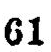61
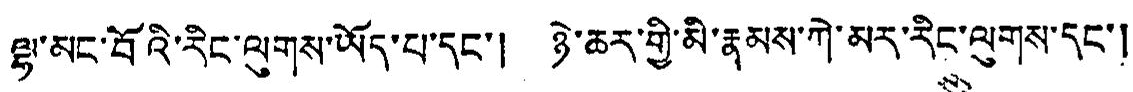ལྷ་མང་བོའི་རིང་ལུགས་ཡོད་པ་དང་། ཉེ་ཆར་གྱི་མི་རྣམས་ཀེ་མར་རིང་ལུགས་དང་།
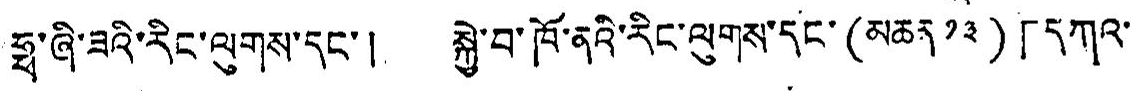ཧྥ་ཞི་ཟའི་རིང་ལུགས་དང་། སྐྱེ་བ་ཁོ་ནའི་རིང་ལུགས་དང་(མཆར ༡༣)「དཀའ་
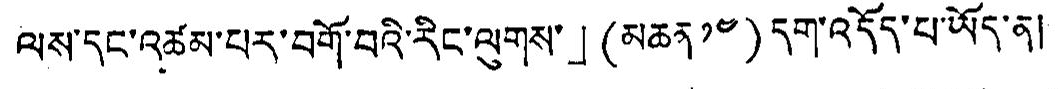ལས་དང་འཚམ་པར་བགོ་བའི་རིང་ལུགས་」(མཆན ༡༤) དག་འདོད་པ་ཡོད་ན།
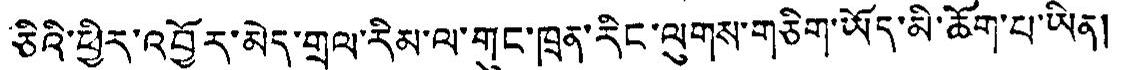ཅིའི་ཕྱིར་འབྱོར་མེད་གྲལ་རིམ་ལ་གུང་ཁྲན་རིང་ལུགས་གཅིག་ཡོད་མི་ཆོག་པ་ཡིན།
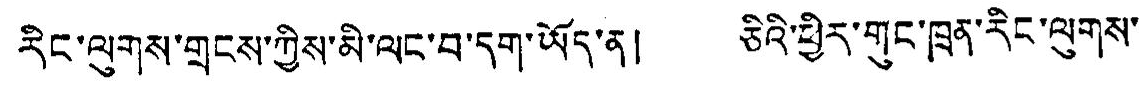རིང་ལུགས་གྲངས་ཀྱིས་མི་ལང་བ་དག་ཡོད་ན། ཅིའི་ཕྱིར་གུང་ཁྲན་རིང་ལུགས་
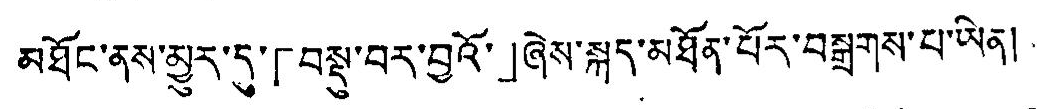མཐོང་ནས་མྱུར་དུ་「བསྡུ་བར་བྱའོ་」ཞེས་སྐད་མཐོན་པོར་བསྒྲགས་པ་ཡིན།
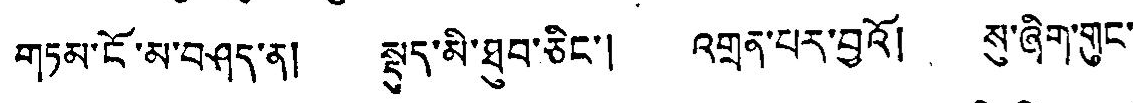གཏམ་ངོ་མ་བཤད་ན། སྡུད་མི་ཐུབ་ཅིང་། འགྲན་པར་བྱའོ། སུ་ཞིག་གུང་
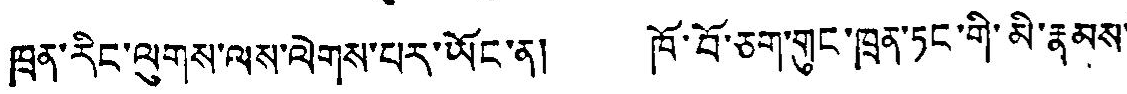ཁྲན་རིང་ལུགས་ལས་ལེགས་པར་ཡོང་ན། ཁོ་བོ་ཅག་གུང་ཁྲན་ཏང་གི་མི་རྣམས་
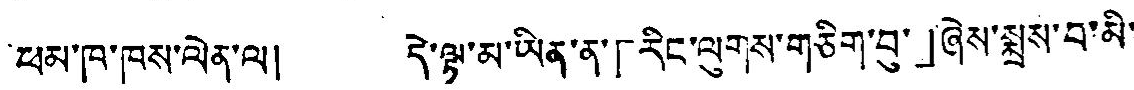ཕམ་ཁ་ཁས་ལེན་ལ། དེ་ལྟ་མ་ཡིན་ན་「རིང་ལུགས་གཅིག་བུ་」ཞེས་སྨྲས་བ་མི་
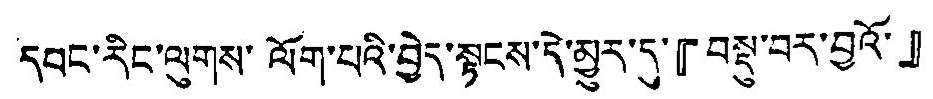དབང་རིང་ལུགས་ལོག་པའི་བྱེད་སྟངས་དེ་མྱུར་དུ་『བསྡུ་བར་བྱའོ་』
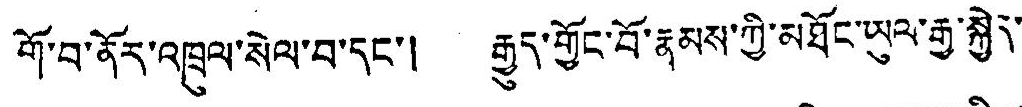གོ་བ་ནོར་འཁྲུལ་སེལ་བ་དང་། རྒྱུད་གྱོང་བོ་རྣམས་ཀྱི་མཐོང་ཡུལ་རྒྱུ་སྐྱེད་
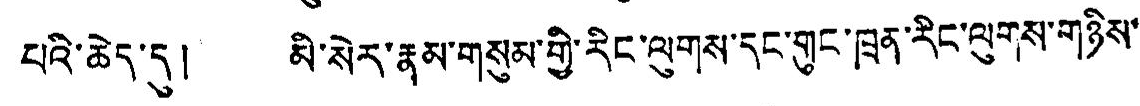པའི་ཆེད་དུ། མི་སེར་རྣམ་གསུམ་གྱི་རིང་ལུགས་དང་གུང་ཁྲན་རིང་ལུགས་གཉིས་
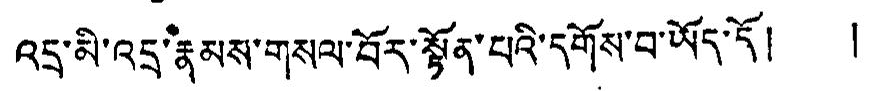འདྲ་མི་འདྲ་རྣམས་གསལ་བོར་སྟོན་པའི་དགོས་བ་ཡོད་དོ། །
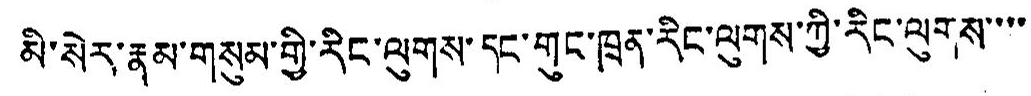མི་སེར་རྣམ་གསུམ་གྱི་རིང་ལུགས་དང་གུང་ཁྲན་རིང་ལུགས་ཀྱི་རིང་ལུགས་་་་
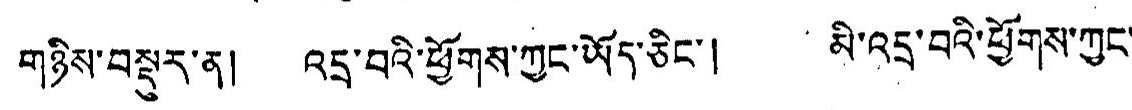གཉིས་བསྡུར་ན། འདྲ་བའི་ཕྱོགས་ཀྱང་ཡོད་ཅིང་། མི་འདྲ་བའི་ཕྱོགས་ཀྱང་
